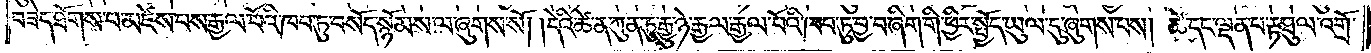བཟེད་ཐོགས་པ་མཛེས་པས་རྒྱལ་པོའི་ཁབ་ཏུ་བསོད་སྙོམས་ལ་ཞུགས་སོ། །དེའི་ཚེ་ན་ཀུན་ཏུ་རྒྱུ་ཉེ་རྒྱལ་རྒྱལ་པོའི་ཁབ་ཏུ་བྱ་བ་ཞིག་གི་ཕྱིར་སྤྱོད་ཡུལ་དུ་ཞུགས་པས། ཚེ་དང་ལྡན་པ་རྟ་ཐུལ་འགྲོ་
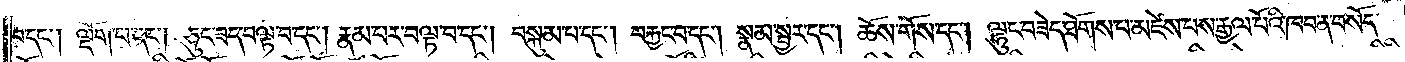བ་དང༌། ལྡོག་པ་དང༌། ཅུང་ཟད་བལྟ་བ་དང༌། རྣམ་པར་བལྟ་བ་དང༌། བསྐུམ་པ་དང༌། བརྐྱང་བ་དང༌། སྣམ་སྦྱར་དང༌། ཆོས་གོས་དང༌། ལྷུང་བཟེད་ཐོགས་པ་མཛེས་པས་རྒྱལ་པོའི་ཁབ་ན་བསོད་
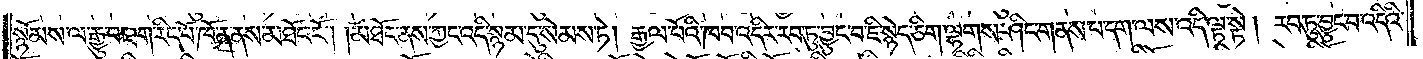སྙོམས་ལ་རྒྱུ་བ་ཐག་རིང་པོ་ཁོ་ན་ནས་མཐོང་ངོ༌། །མཐོང་ནས་ཀྱང་འདི་སྙམ་དུ་སེམས་ཏེ། རྒྱལ་པོའི་ཁབ་འདིར་རབ་ཏུ་བྱུང་བ་ཇི་སྙེད་ཅིག་ལྷགས་ཤིང་གནས་པ་དག་ལས་འདི་ལྟ་སྟེ། རབ་ཏུ་བྱུང་བ་འདིའི་
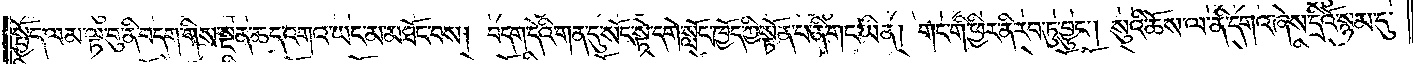སྤྱོད་ལམ་ལྟ་བུ་ནི་བདག་གིས་སྔན་ཆད་འགའ་ཡང་མ་མཐོང་བས། བདག་དེའི་གན་དུ་སོང་སྟེ་དགེ་སློང་ཁྱོད་ཀྱི་སྟོན་པ་ནི་གང་ཡིན། གང་གི་ཕྱིར་ནི་རབ་ཏུ་བྱུང༌། སུའི་ཆོས་ལ་ནི་དགའ་ཞེས་དྲིའོ་སྙམ་དུ་
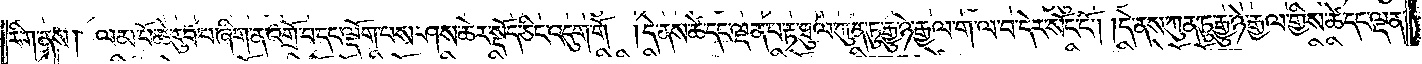རིག་ནས། ལམ་པོ་ཆེ་རུབ་པ་ཞིག་ན་འགྲོ་བ་དང་ལྡོག་པས་ཤས་ཆེར་སྡོད་ཅིང་འདུག་གོ །དེ་ནས་ཚེ་དང་ལྡན་པ་རྟ་ཐུལ་ཀུན་ཏུ་རྒྱུ་ཉེ་རྒྱལ་ག་ལ་བ་དེར་སོང་ངོ༌། །དེ་ནས་ཀུན་ཏུ་རྒྱུ་ཉེ་རྒྱལ་གྱིས་ཚེ་དང་ལྡན་
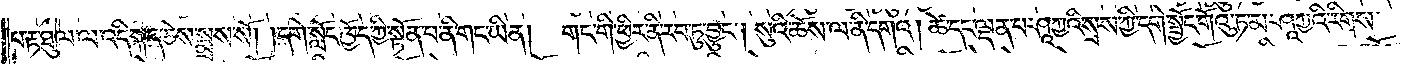པ་རྟ་ཐུལ་ལ་འདི་སྐད་ཅེས་སྨྲས་སོ། །དགེ་སློང་ཁྱོད་ཀྱི་སྟོན་པ་ནི་གང་ཡིན། གང་གི་ཕྱིར་ནི་རབ་ཏུ་བྱུང༌། སུའི་ཆོས་ལ་ནི་དགའ། ཚེ་དང་ལྡན་པ་ཤཱཀྱའི་སྲས་ཀྱི་དགེ་སྦྱོང་གོའུ་ཏ་མ་ཤཱཀྱའི་རིགས་
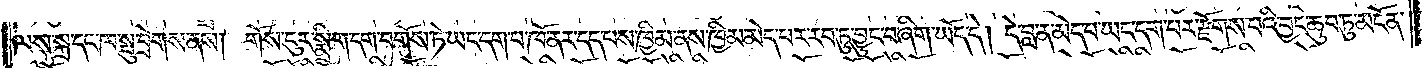ལས་སྐྲ་དང་ཁ་སྤུ་བྲེགས་ནས། གོས་ངུར་སྨྲིག་དག་བགོས་ཏེ་ཡང་དག་པ་ཁོ་ནར་དད་པས་ཁྱིམ་ནས་ཁྱིམ་མེད་པར་རབ་ཏུ་བྱུང་བ་ཞིག་ཡོད་དེ། དེ་བླ་ན་མེད་པ་ཡང་དག་པར་རྫོགས་པའི་བྱང་ཆུབ་ཏུ་མངོན་
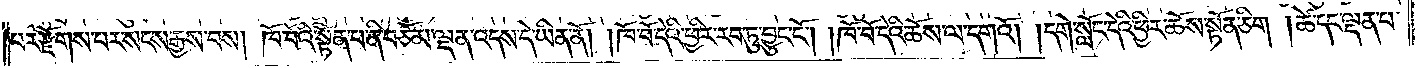པར་རྫོགས་པར་སངས་རྒྱས་བས། ཁོ་བོའི་སྟོན་པ་ནི་བཅོམ་ལྡན་འདས་དེ་ཡིན་ནོ། །ཁོ་བོ་དེའི་ཕྱིར་རབ་ཏུ་བྱུང་ངོ༌། །ཁོ་བོ་དེའི་ཆོས་ལ་དགའོ། །དགེ་སློང་དེའི་ཕྱིར་ཆོས་སྟོན་ཅིག །ཚེ་དང་ལྡན་པ་
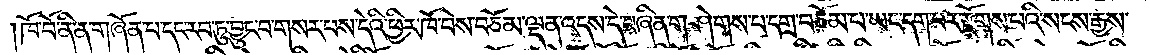ཁོ་བོ་ནི་ན་གཞོན་པ་དང་རབ་ཏུ་བྱུང་བ་གསར་པས་དེའི་ཕྱིར་ཁོ་བོས་བཅོམ་ལྡན་འདས་དེ་བཞིན་གཤེགས་པ་དགྲ་བཅོམ་པ་ཡང་དག་པར་རྫོགས་པའི་སངས་རྒྱས་
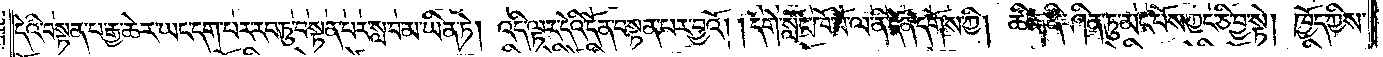དེའི་བསྟན་པ་རྒྱ་ཆེར་ཡང་དག་པར་རབ་ཏུ་བསྟན་པར་སླ་བ་མ་ཡིན་ཏེ། འདི་ལྟར་དེའི་དོན་བསྟན་པར་བྱའོ། །དགེ་སློང་ཁོ་བོ་ལ་ནི་དོན་དགོས་ཀྱི། ཚིག་ནི་ཤིན་ཏུ་མང་པོས་ཀྱང་ཅི་བྱ་སྟེ། ཁྱོད་ཀྱིས་
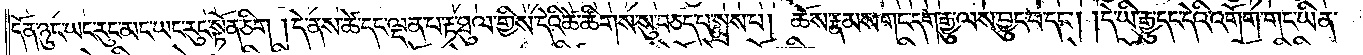དོན་ཉུང་ཡང་རུང་མང་ཡང་རུང་སྟོན་ཅིག །དེ་ནས་ཚེ་དང་ལྡན་པ་རྟ་ཐུལ་གྱིས་དེའི་ཚེ་ཚིགས་སུ་བཅད་པ་སྨྲས་པ། ཆོས་རྣམས་གང་དག་རྒྱུ་ལས་བྱུང་བ་དང༌། །དེ་ཡི་རྒྱུ་དང་དེའི་འགོག་གང་ཡིན་
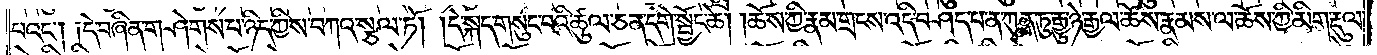པའང༌། །དེ་བཞིན་གཤེགས་པ་ཉིད་ཀྱིས་བཀའ་སྩལ་ཏོ། །དེ་སྐད་གསུང་བའི་ཚུལ་ཅན་དགེ་སྦྱོང་ཆེ། །ཆོས་ཀྱི་རྣམ་གྲངས་འདི་བཤད་པ་ན་ཀུན་ཏུ་རྒྱུ་ཉེ་རྒྱལ་ཆོས་རྣམས་ལ་ཆོས་ཀྱི་མིག་རྡུལ་
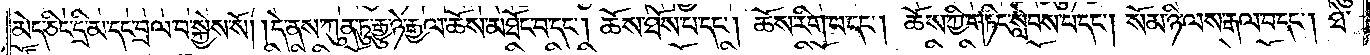མེད་ཅིང་དྲི་མ་དང་བྲལ་བ་སྐྱེས་སོ། །དེ་ནས་ཀུན་ཏུ་རྒྱུ་ཉེ་རྒྱལ་ཆོས་མཐོང་བ་དང༌། ཆོས་ཐོས་པ་དང༌། ཆོས་རིག་པ་དང༌། ཆོས་ཀྱི་གཏིང་སླེབས་པ་དང༌། སོམ་ཉི་ལས་རྒལ་བ་དང༌། ཐེ་
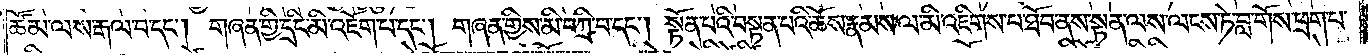ཚོམ་ལས་རྒལ་བ་དང༌། གཞན་གྱི་དྲིང་མི་འཇོག་པ་དང༌། གཞན་གྱིས་མི་བཀྲི་བ་དང༌། སྟོན་པའི་བསྟན་པའི་ཆོས་རྣམས་ལ་མི་འཇིགས་པ་ཐོབ་ནས་སྟན་ལས་ལངས་ཏེ་བླ་གོས་ཕྲག་པ་
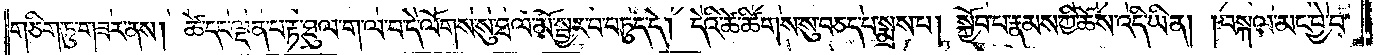གཅིག་ཏུ་གཟར་ནས། ཚེ་དང་ལྡན་པ་རྟ་ཐུལ་ག་ལ་བ་དེ་ལོགས་སུ་ཐལ་མོ་སྦྱར་བ་བཏུད་དེ། དེའི་ཚེ་ཚིགས་སུ་བཅས་པ་སྨྲས་པ། སྐྱོབ་པ་རྣམས་ཀྱི་ཆོས་འདི་ཡིན། །བསྐལ་མང་བྱེ་བ་
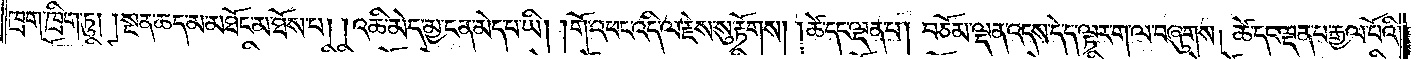ཁྲག་ཁྲིག་ཏུ། །སྔན་ཆད་མ་མཐོང་མ་ཐོས་པ། །འཆི་མེད་མྱ་ངན་མེད་པ་ཡི། །གོ་འཕང་འདི་ལ་རྗེས་སུ་རྟོགས། །ཚེ་དང་ལྡན་པ། བཅོམ་ལྡན་འདས་དེ་ད་ལྟར་ག་ལ་བཞུགས། ཚེ་དང་ལྡན་པ་རྒྱལ་པོའི་
